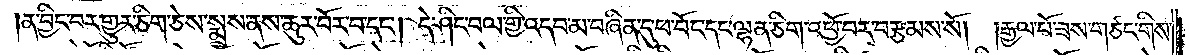།ན་བྱིང་བར་གྱུར་ཅིག་ཅེས་སྨྲས་ནས་ཆུར་བོར་བ་དང༌། དེ་ཤིང་བལ་གྱི་འདབ་མ་བཞིན་དུ་ཕ་བོང་དང་ལྷན་ཅིག་འཕྱོ་བར་བརྩམས་སོ། །རྒྱལ་པོ་ཟས་གཙང་གིས་
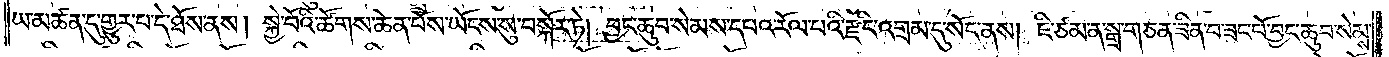ཡ་མཚན་དུ་གྱུར་པ་དེ་ཐོས་ནས། སྐྱེ་བོའི་ཚོགས་ཆེན་པོས་ཡོངས་སུ་བསྐོར་ཏེ། བྱང་ཆུབ་སེམས་དཔའ་རོལ་པའི་རྫིང་འགྲམ་དུ་སོང་ནས། ཇི་ཙམ་ན་སྒྲ་གཅན་ཟིན་པ་བཟང་པོ་བྱང་ཆུབ་སེམས་
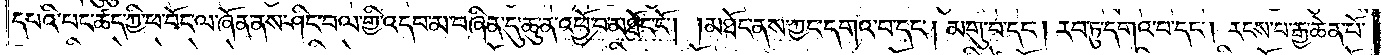དཔའི་པང་ཚད་ཀྱི་ཕ་བོང་ལ་ཞོན་ནས་ཤིང་བལ་གྱི་འདབ་མ་བཞིན་དུ་ཆུ་ན་འཕྱོ་བ་མཐོང་ངོ༌། །མཐོང་ནས་ཀྱང་དགའ་བ་དང༌། མགུ་བ་དང༌། རབ་ཏུ་དགའ་བ་དང༌། རངས་པ་རྒྱ་ཆེན་པོ་
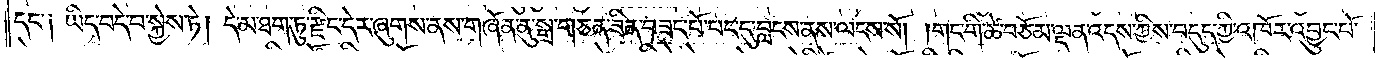དང་༑ ཡིད་བདེ་བ་སྐྱེས་ཏེ། དེ་མ་ཐག་ཏུ་རྫིང་དེར་ཞུགས་ནས་གཞོན་ནུ་སྒྲ་གཅན་ཟིན་བཟང་པོ་པང་དུ་བླངས་ནས་ལངས་སོ། །གང་གི་ཚེ་བཅོམ་ལྡན་འདས་ཀྱིས་བདུད་ཀྱི་འཁོར་འབྱུང་པོ་
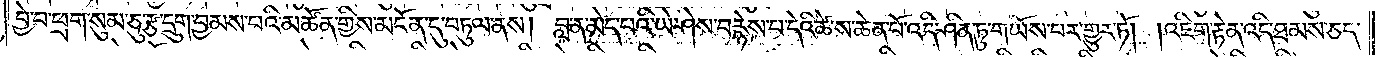བྱེ་བ་ཕྲག་སུམ་ཅུ་རྩ་དྲུག་བྱམས་པའི་མཚོན་གྱིས་མངོན་དུ་བཏུལ་ནས། བླ་ན་མེད་པའི་ཡེ་ཤེས་བརྙེས་པ་དེའི་ཚེ་ས་ཆེན་པོ་འདི་ཤིན་ཏུ་གཡོས་པར་གྱུར་ཏོ། །འཇིག་རྟེན་འདི་ཐམས་ཅད་
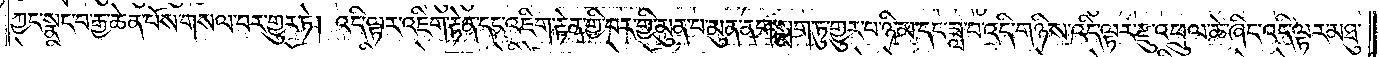ཀྱང་སྣང་བ་རྒྱ་ཆེན་པོས་གསལ་བར་གྱུར་ཏེ། འདི་ལྟར་འཇིག་རྟེན་དང་འཇིག་རྟེན་གྱི་བར་གྱི་མུན་པ་མུན་ནག་སྨག་ཏུ་གྱུར་བ་ཉི་མ་དང་ཟླ་བ་འདི་གཉིས་འདི་ལྟར་རྫུ་འཕྲུལ་ཆེ་ཞིང་འདི་ལྟར་མཐུ་
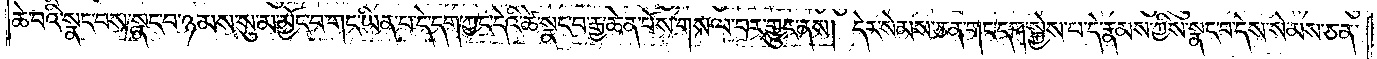ཆེ་བའི་སྣང་བས་སྣང་བ་ཉམས་སུ་མ་མྱོང་བ་གང་ཡིན་པ་དེ་དག་ཀྱང་དེའི་ཚེ་སྣང་བརྒྱ་ཆེན་པོས་གསལ་བར་གྱུར་ནས། དེར་སེམས་ཅན་གང་དག་སྐྱེས་པ་དེ་རྣམས་ཀྱིས་སྣང་བ་དེས་སེམས་ཅན་
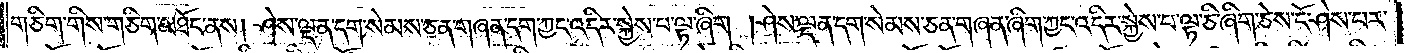གཅིག་གིས་གཅིག་མཐོང་ནས། ཤེས་ལྡན་དག་སེམས་ཅན་གཞན་དག་ཀྱང་འདིར་སྐྱེས་པ་ལྟ་ཞིག །ཤེས་ལྡན་དག་སེམས་ཅན་གཞན་ཞིག་ཀྱང་འདིར་སྐྱེས་པ་ལྟ་ཅི་ཞིག་ཅེས་ངོ་ཤེས་པར་
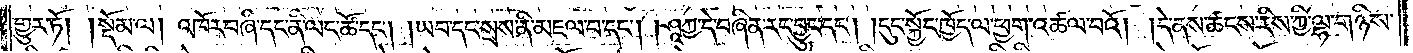གྱུར་ཏོ།    །སྡོམ་ལ། འཁོར་བཞི་དང་ནི་ལང་ཚོ་དང༌། །ཡབ་དང་སྲས་ནི་མཇལ་བ་དང༌། །ཤཱཀྱ་དེ་བཞིན་རང་བྱུང་དང༌། །དུང་སྐྱོང་ཁྱོད་ལ་ཕྱག་འཚལ་བའོ། །དེ་ནས་ཚངས་རིས་ཀྱི་ལྷ་གཉིས་
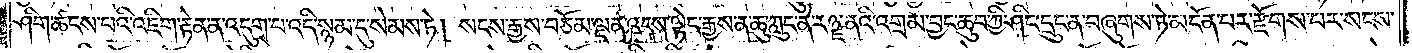ཤིག་ཚངས་པའི་འཇིག་རྟེན་ན་འདུག་པ་འདི་སྙམ་དུ་སེམས་ཏེ། སངས་རྒྱས་བཅོམ་ལྡན་འདས་ལྟེང་རྒྱས་ན་ཆུ་ཀླུང་ནེ་རཉྫ་ནའི་འགྲམ་བྱང་ཆུབ་ཀྱི་ཤིང་དྲུང་ན་བཞུགས་ཏེ་མངོན་པར་རྫོགས་པར་སངས་
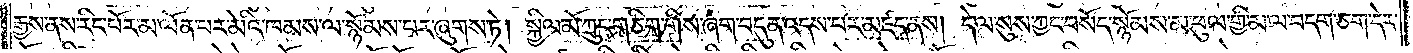རྒྱས་ནས་རིང་པོར་མ་ལོན་པར་མེའི་ཁམས་ལ་སྙོམས་པར་ཞུགས་ཏེ། སྐྱིལ་མོ་ཀྲུང་གཅིག་གིས་ཞག་བདུན་འདས་པར་མཛད་ནས། དེ་ལ་སུས་ཀྱང་བསོད་སྙོམས་མ་ཕུལ་གྱི་མ་ལ་བདག་ཅག་དེར་
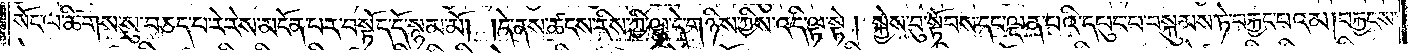སོང་ལ་ཚིགས་སུ་བཅད་པ་རེ་རེས་མངོན་པར་བསྟོད་དོ་སྙམ་མོ། །དེ་ནས་ཚངས་རིས་ཀྱི་ལྷ་དེ་གཉིས་ཀྱིས་འདི་ལྟ་སྟེ། སྐྱེས་བུ་སྟོབས་དང་ལྡན་པའི་དཔུང་བ་བསྐུམས་ཏེ་བརྐྱང་པའམ། བརྐྱངས་
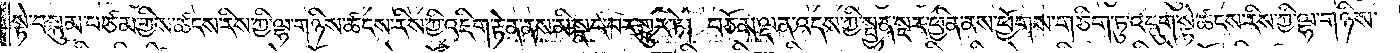སྟེ་བསྐུམ་པ་ཙམ་གྱིས་ཚངས་རིས་ཀྱི་ལྷ་གཉིས་ཚངས་རིས་ཀྱི་འཇིག་རྟེན་ནས་མི་སྣང་བར་གྱུར་ཏེ། བཅོམ་ལྡན་འདས་ཀྱི་སྤྱན་སྔར་ཕྱིན་ནས་ཕྱོགས་གཅིག་ཏུ་འདུག་སྟེ་ཚངས་རིས་ཀྱི་ལྷ་གཉིས་
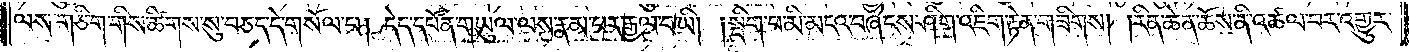ལས་གཅིག་གིས་ཚིགས་སུ་བཅད་དེ་གསོལ་བ། དེད་དཔོན་གཡུལ་ལས་རྣམ་པར་རྒྱལ་བ་ཡི། །སྡིག་པ་མི་མངའ་བཞེངས་ཤིག་འཇིག་རྟེན་གཟིགས། །རིན་ཆེན་ཆོས་ནི་འཚལ་བར་འགྱུར་
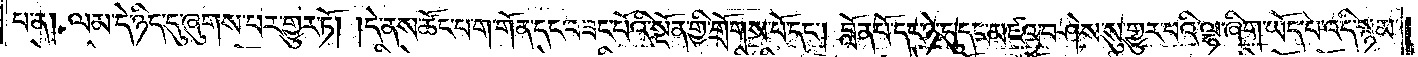པ་ན། ལམ་དེ་ཉིད་དུ་ཞུགས་པར་གྱུར་ཏོ། །དེ་ནས་ཚོང་པ་ག་གོན་དང་བཟང་པོའི་སྔོན་གྱི་གྲོགས་པོ་དང༌། བློན་པོ་དང་ཉེ་དུ་དང་མཛའ་བཤེས་སུ་གྱུར་པའི་ལྷ་ཞིག་ཡོད་པ་འདི་སྙམ་
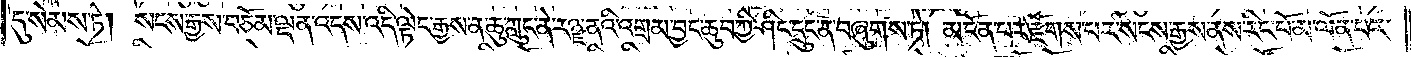དུ་སེམས་ཏེ། སངས་རྒྱས་བཅོམ་ལྡན་འདས་འདི་ལྡེང་རྒྱས་ན་ཆུ་ཀླུང་ནེ་རཉྫ་ནའི་འགྲམ་བྱང་ཆུབ་ཀྱི་ཤིང་དྲུང་ན་བཞུགས་ཏེ། མངོན་པར་རྫོགས་པར་སངས་རྒྱས་ནས་རིང་པོ་མ་ལོན་པར་
